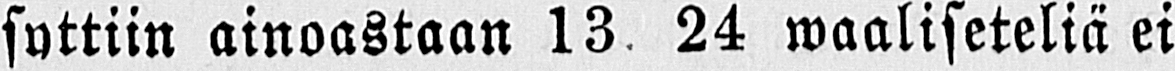syttiin ainoastaan 13 24 waaliseteliä ei
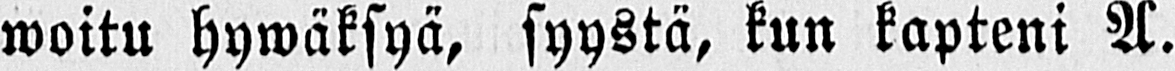woitu hywäksyä, syystä, kun kapteni A.
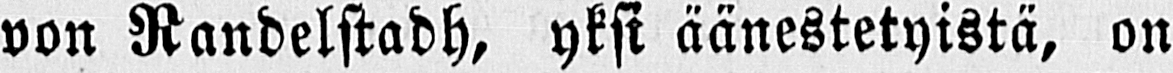von Randelstadh, yksi äänestetyistä, on
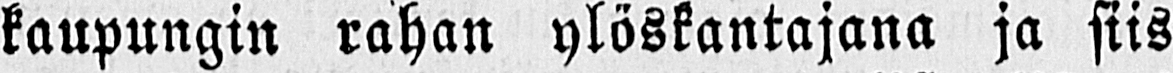kaupungin rahan ylöskantajana ja siis
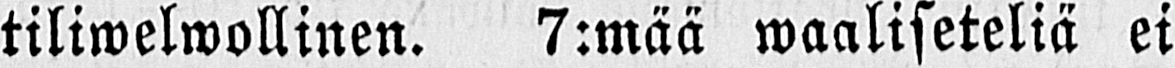tiliwelwollinen. 7:mää waaliseteliä ei
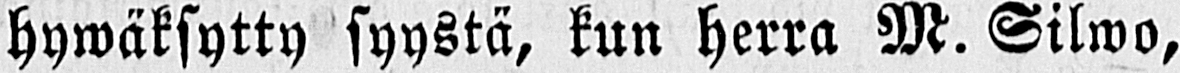hywäksytty syystä, kun herra M. Silwo,
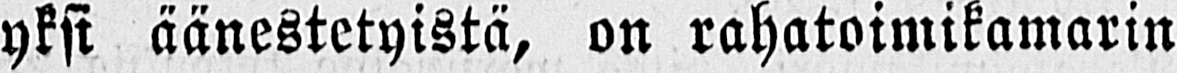yksi äänestetyistä, on rahatoimikamarin
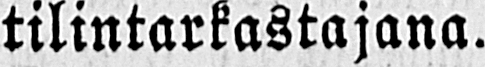tilintarkastajana.
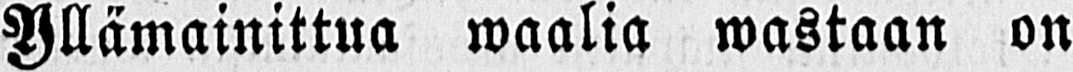Yllämainittua waalia wastaan on
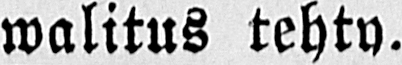walitus tehty.
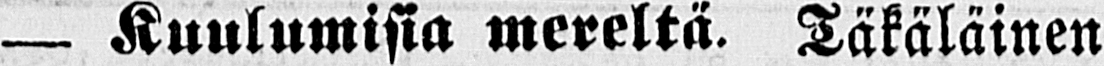— Kuulumisia mereltä. Täkäläinen
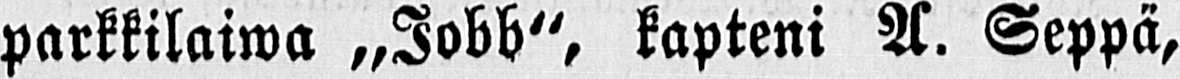parkkilaiwa „Jobb", kapteni A. Seppä,
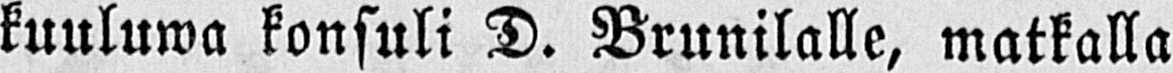kuuluwa konsuli D. Brunilalle, matkalla
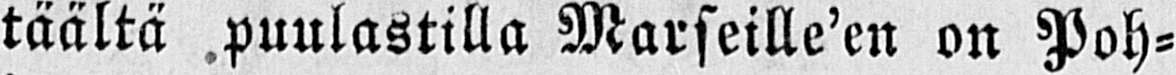täältä puulastilla Marseille'en on Poh-
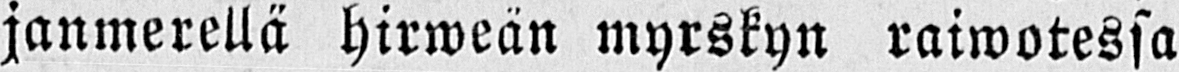janmerellä hirweän myrskyn raiwotessa
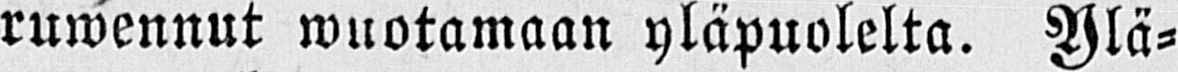ruwennut wuotamaan yläpuolelta. Ylä-
